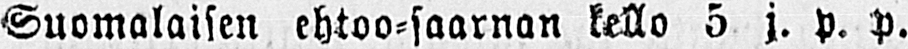Suomalaisen ehtoo-saarnan kello 5 j. p. P.
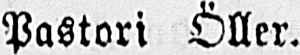Pastori Öller.
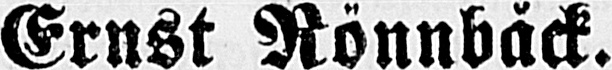Ernst Rönnb åck.
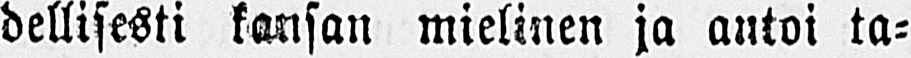dellisesti kansan mielinen ja antoi ta-
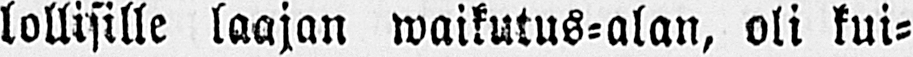lollisille laajan waikutus-alan, oli kui-
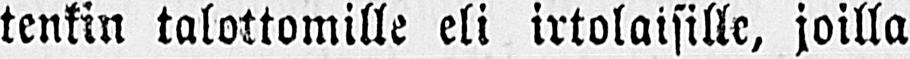tenkin talottomille eli irtolaisille, joilla
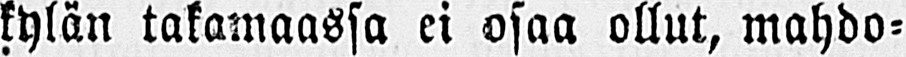kylän takamaassa ei osaa ollut, mahdo-
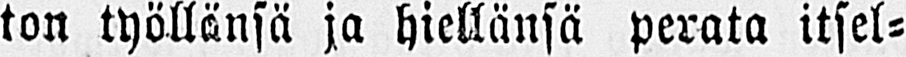ton työllänsä ja hiellänsä perata itsel-
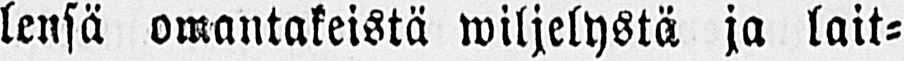lensä omantakeistä wiljelystä ja lait-
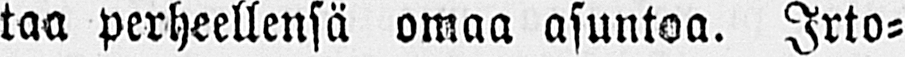taa perheellensä omaa asuntoa. Irto-
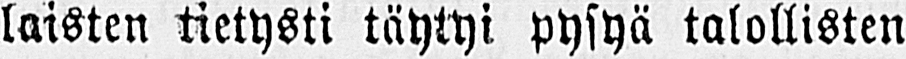laisten tietysti täytyi pysyä talollisten
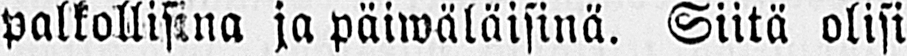palkollisina ja päiwäläisinä. Siitä olisi
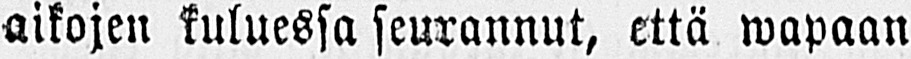aikojen kuluessa seurannut, että wapaan
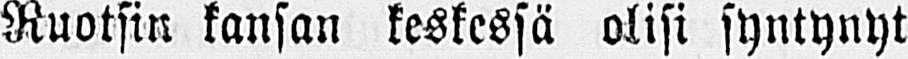Ruotsin kansan keskessä olisi syntynyt
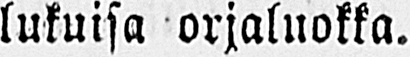lukuisa orjaluokka.
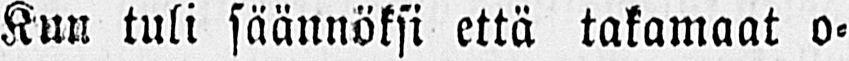Kun tuli säännöksi että takamaat o-
